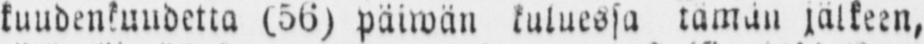kuudenkuudetta (56) päiwän kuluessa tämän jälkeen,
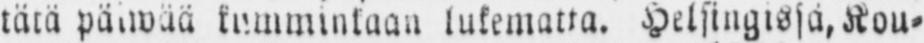tätä päiwää kumminkaan lukematta. Helsingissä, Kou-
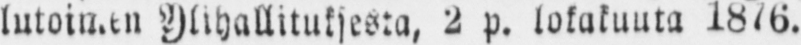lutoimen Ylihallituksesta, 2 p. lokakuuta 1876.
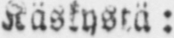Käskystä:
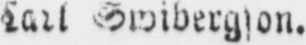Carl Swibergson.
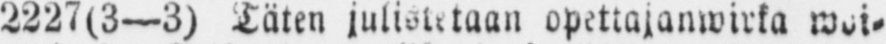2227(3 —3) Täten juliststaan opettajanwirka woi-
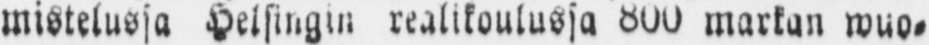mistelussa Helsingin realikoulussa 800 markan wuo-
